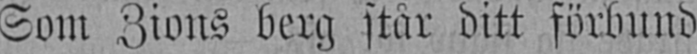Som Zions berg står ditt förbund
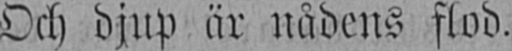Och djup är nådens flod.
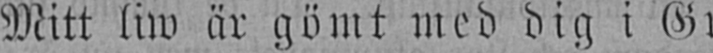Mitt liw är gömt med dig i Gud,
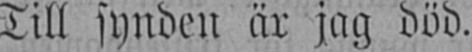Till synden är jag död.
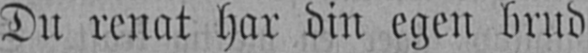Du renat har din egen brud
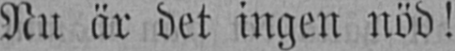Nu är det ingen nöd!
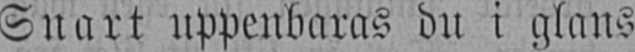Snart uppenbaras du i glans
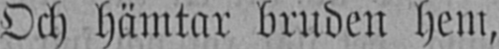Och hämtar bruden hem,
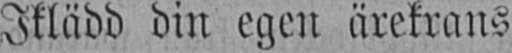Iklädd din egen ärekrans
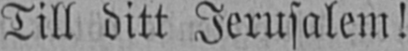Till ditt Jerusalem!
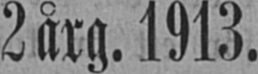2årg. 1913.
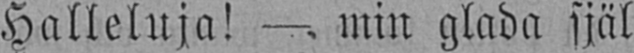Halleluja! —- min glada själ
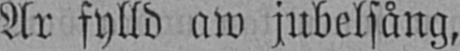Är fylld aw jubelsång,
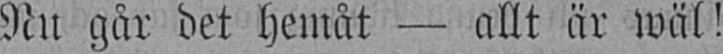Nu går det hemåt — allt är wäl!
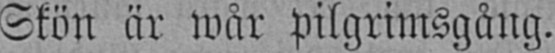Skön är wår Pilgrimsgång.
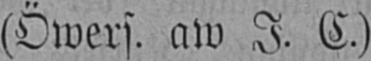(Öwers. aw I. C.)
